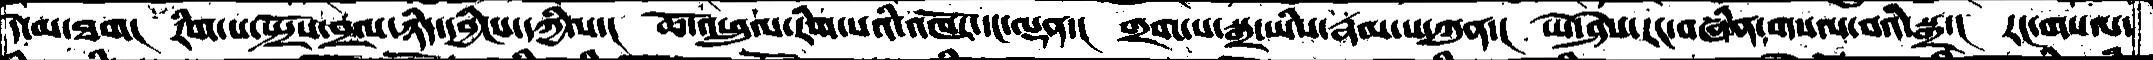དེ་མ་ཐག།  རིག་པ་སྤྲོས་བྲལ་ཉིད་དབྱིངས་དཀྱིལ་།   ཆོ་འཕྲུལ་རིག་པའི་འཁོར་དང་ལྡན་།  གྲག་པ་སྒྲ་ཡིས་རྣམ་པ་ཀུན་།  ཡེ་ཤེས་རང་བཞིན་གསལ་བའི་སྒྲ་།  རང་གསལ་
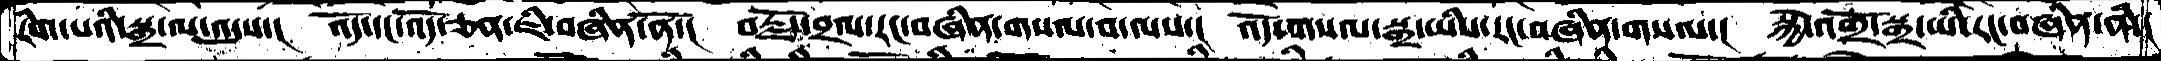རིག་པའི་སྒྲ་ལ་འདུས་།  འོད་དང་འོད་ཅན་ཇི་བཞིན་ནོ་།  བརྗོད་བྲལ་རང་བཞིན་གསལ་བ་ལས་།  འོད་གསལ་སྒྲ་ཡིས་རང་བཞིན་གསལ་།  སྐྱེ་འགྲོ་སྒྲ་ཡི་རང་བཞིན་ནི་།
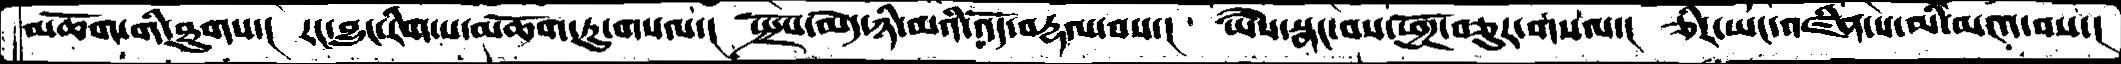མཆོག་གི་ཐུགས་།  རང་བྱུང་རིག་པ་མཆོག་ཏུ་གསལ་།  སྤྲོས་མེད་ཉི་མའི་འོད་བརྡལ་བས་།  ཡཻས་སྣང་བས་ཕྱོཌ་བཅུར་གསལ་།  ཅིར་ཡང་འཛིན་པ་མི་མངའ་བས་།
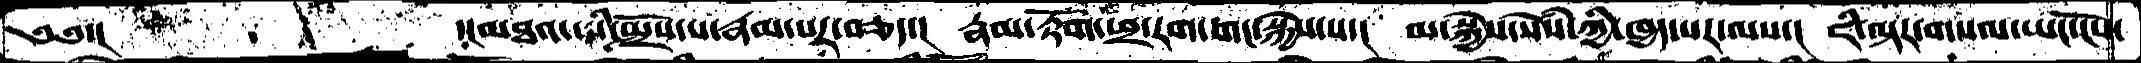༄༅་།            ་།མཐའ་ཡི་སྤྲོས་པ་རྣམ་པར་བཅད་།  རྣམ་རྟོག་ཕྲ་རག་གང་སྐྱེས་པ་།  མ་སྐྱེས་སེསཾ་ཀྱི་ཁྱད་པར་ལས་།  ཇི་ལྟར་གསལ་ཡང་ངོས་
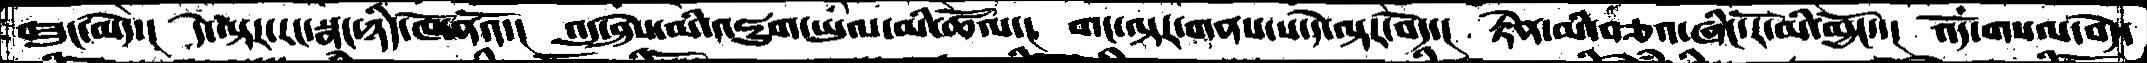བཟུང་མེད་།  དེ་ལྟར་རང་སྣང་ཉིད་ཁོ་ནའོ་།  འདུ་ཤེས་མི་འཇུག་ཡུལ་མི་ཚོལ་།  གང་ལྟར་གནས་པ་དེ་ལྟར་བདེ་།  རྟེན་མི་བཅའ་ཞིང་རོ་མི་མྱོང་་།  འདོ་གསལ་བདེ་
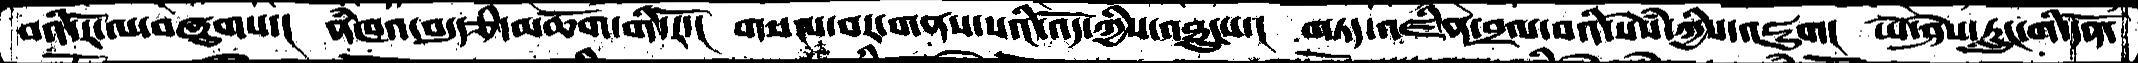བའི་རོ་ལ་བཞུགས་།  ནཾཁའ་བདུདཅི་མཆོག་གི་རོ་།  གསལ་བར་གནས་པའི་འོད་ཀྱིས་འཐུངས་།  གཏད་འཛིན་བྲལ་བའི་སེསཾ་ཀྱིས་འཇུག།  ཡེ་ཤེས་རླུང་གི་དོན་
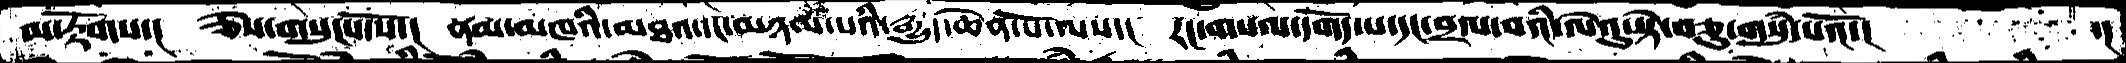མ་རྟོགས་།  ཅེས་གསུངས་སོ་།  ནམ་མཁའི་མཐའ་དང་མཉམ་པའི་རྒྱུད་ཆེན་པོ་ལས་།  རང་གསལ་དགོད་པ་དང་བྲལ་བའི་ལེའུ་སྟེ་བཅུ་གསུཾ་པའོ་།       ་།
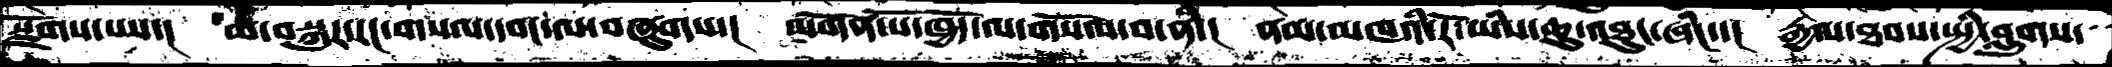སྫོགས་པས་།  མ་བསྐུར་རང་གསལ་དབང་ལ་བཞུགས་།  མགོན་པོ་ཁྱོད་ལ་གསོལ་བ་ནི་།  ནམ་མཁའི་རོ་ཡིས་ཆུ་འཐུང་ཞིང་་།  རྒྱལ་ཐབས་སྤྱི་བླུགས་
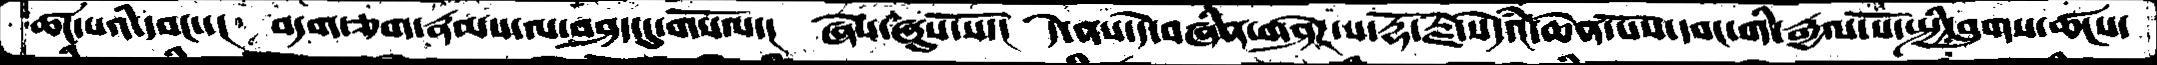ཚང་པའི་དབང་་།  བདག་ཅག་རྣམས་ལ་བཤད་དུ་གསོལ་།   ཞེས་ཞུས་སོ་།  དེ་ནས་དེ་བཞིན་གཤེཌ་པ་རྡོ་རྗེ་སེདཾའ་ཆེན་པོས་དབང་གི་རྒྱལ་པོ་སྤྱི་བླུགས་ཚངས་
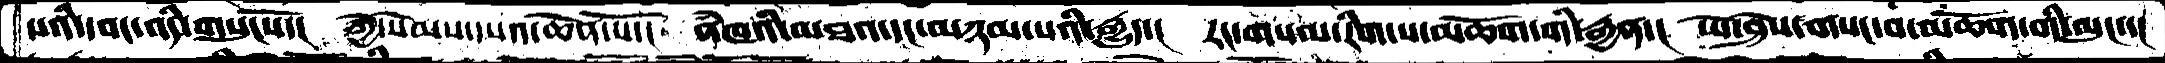པའི་དབང་འདི་གསུངསོ་།  ཀྱེ་སེམས་དཔའ་ཆེན་པོ་།  ནཾཁའི་མཐའ་དང་མཉམ་པའི་རྒྱུད་།  རང་གསལ་་རིག་པ་མཆོག་གི་རྒྱན་།  ཡེ་ཤེས་གསང་བ་མཆོག་གི་ལུང་་།
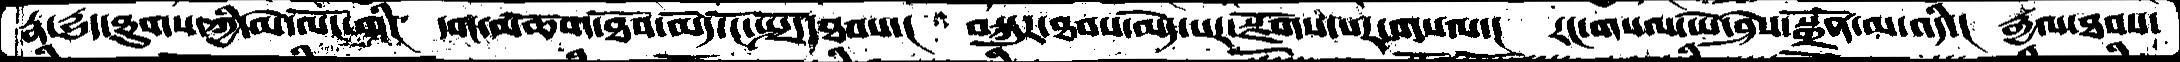རྣ་དྱུད་ཐུགས་ཀྱི་མེ་ལོང་གི།  དབང་མཆོག་ཐོབ་མོད་ངོ་སྤྲོད་ཐབས་།  བསྐུར་ཐབས་མེད་པར་སྫོགས་པར་གསལ་།  རང་གསལ་ཡེ་ཤེས་སྒྲོན་མ་འདི་།  རྒྱལ་ཐབས་
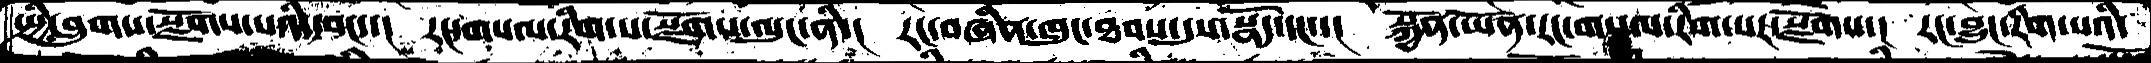སྤྱི་བླུགས་སྫོགས་པའི་དབང་་།   རང་གསལ་རིག་པ་སྫོགས་ལུང་ནི་།  རང་བཞིན་ཁུང་ཐབས་དུས་སྣོད་དང་་།   སྐྱོན་ཡོན་རང་གསལ་རིག་པར་སྫོགས་།  རང་བྱུང་རིག་པའི་
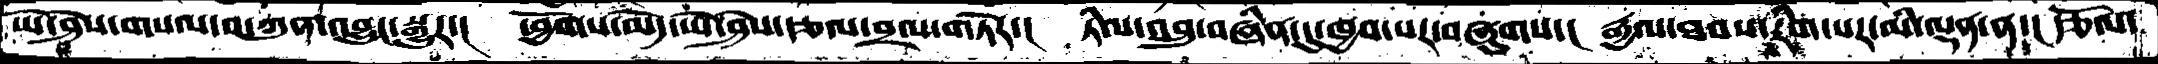ཡེ་ཤེས་གསལ་བ་ཀུན་འབྱུང་སྒྱུར་།  ཕྱོགས་མེད་ཡེ་ཤེས་རྩལ་བྲལ་གཏེར་།  ཏིལ་འབྲུ་བཞིན་དུ་ཁྱབ་པར་བཞུགས་།  རྒྱལ་ཐབས་རིག་པར་མི་ལྡན་ན་། རྩོལ་
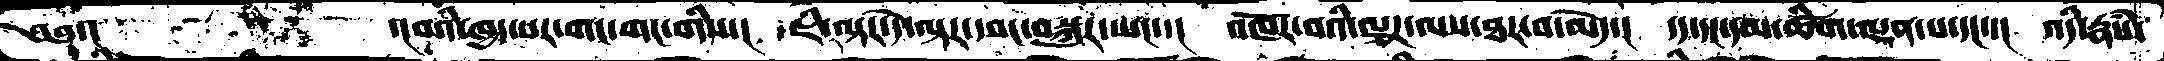༄༅་།       ་།བའི་ཁྱད་པར་གང་གང་གིས་།   ཇི་ལྟར་དེ་ལྟར་དབང་བསྐུར་ཡང་་།  འཁོར་བའི་ལྕཌ་ལས་ཐར་བ་མེད་།  དད་དང་དམ་ཚིག་ལྡན་པ་དང་་།  འདི་རྣཾས་
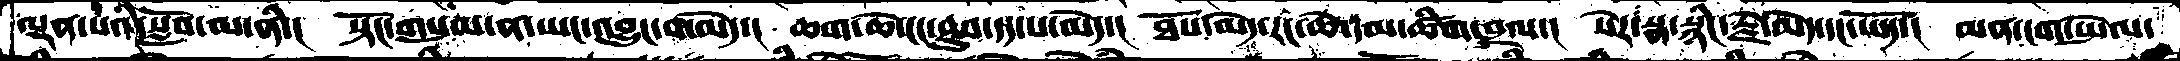ལྡན་པའི་སློབ་མ་ནི་།   སྟོང་གསུམ་ན་ཡང་འབྱུང་བ་མེད་།  ཆག་ཆེ་ངང་ཐུབ་དད་པ་མེད་།  ཐོས་མེད་རང་ཆེ་དམ་ཚིག་བྲལ་།  སེར་སྣ་སྙིང་རྗེ་མེད་དང་ཡོད་།  མན་ངག་སྤེལ་
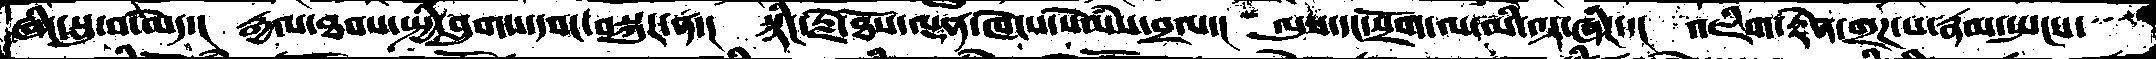ཞིང་སླུ་བ་མེད་།  རྒྱལ་ཐབས་སྤྱི་བླུགས་དབང་བསྐུར་ན་།  སྙིང་རྗེ་ཐོས་ལྡན་ཁེངས་སེམཾས་བྲལ་།  ལུས་དང་སྲོག་ལ་མི་ལྟ་ཞིང་་།  འཇིག་རྟེན་གྲཌ་པ་རྣམ་སྤངས་
